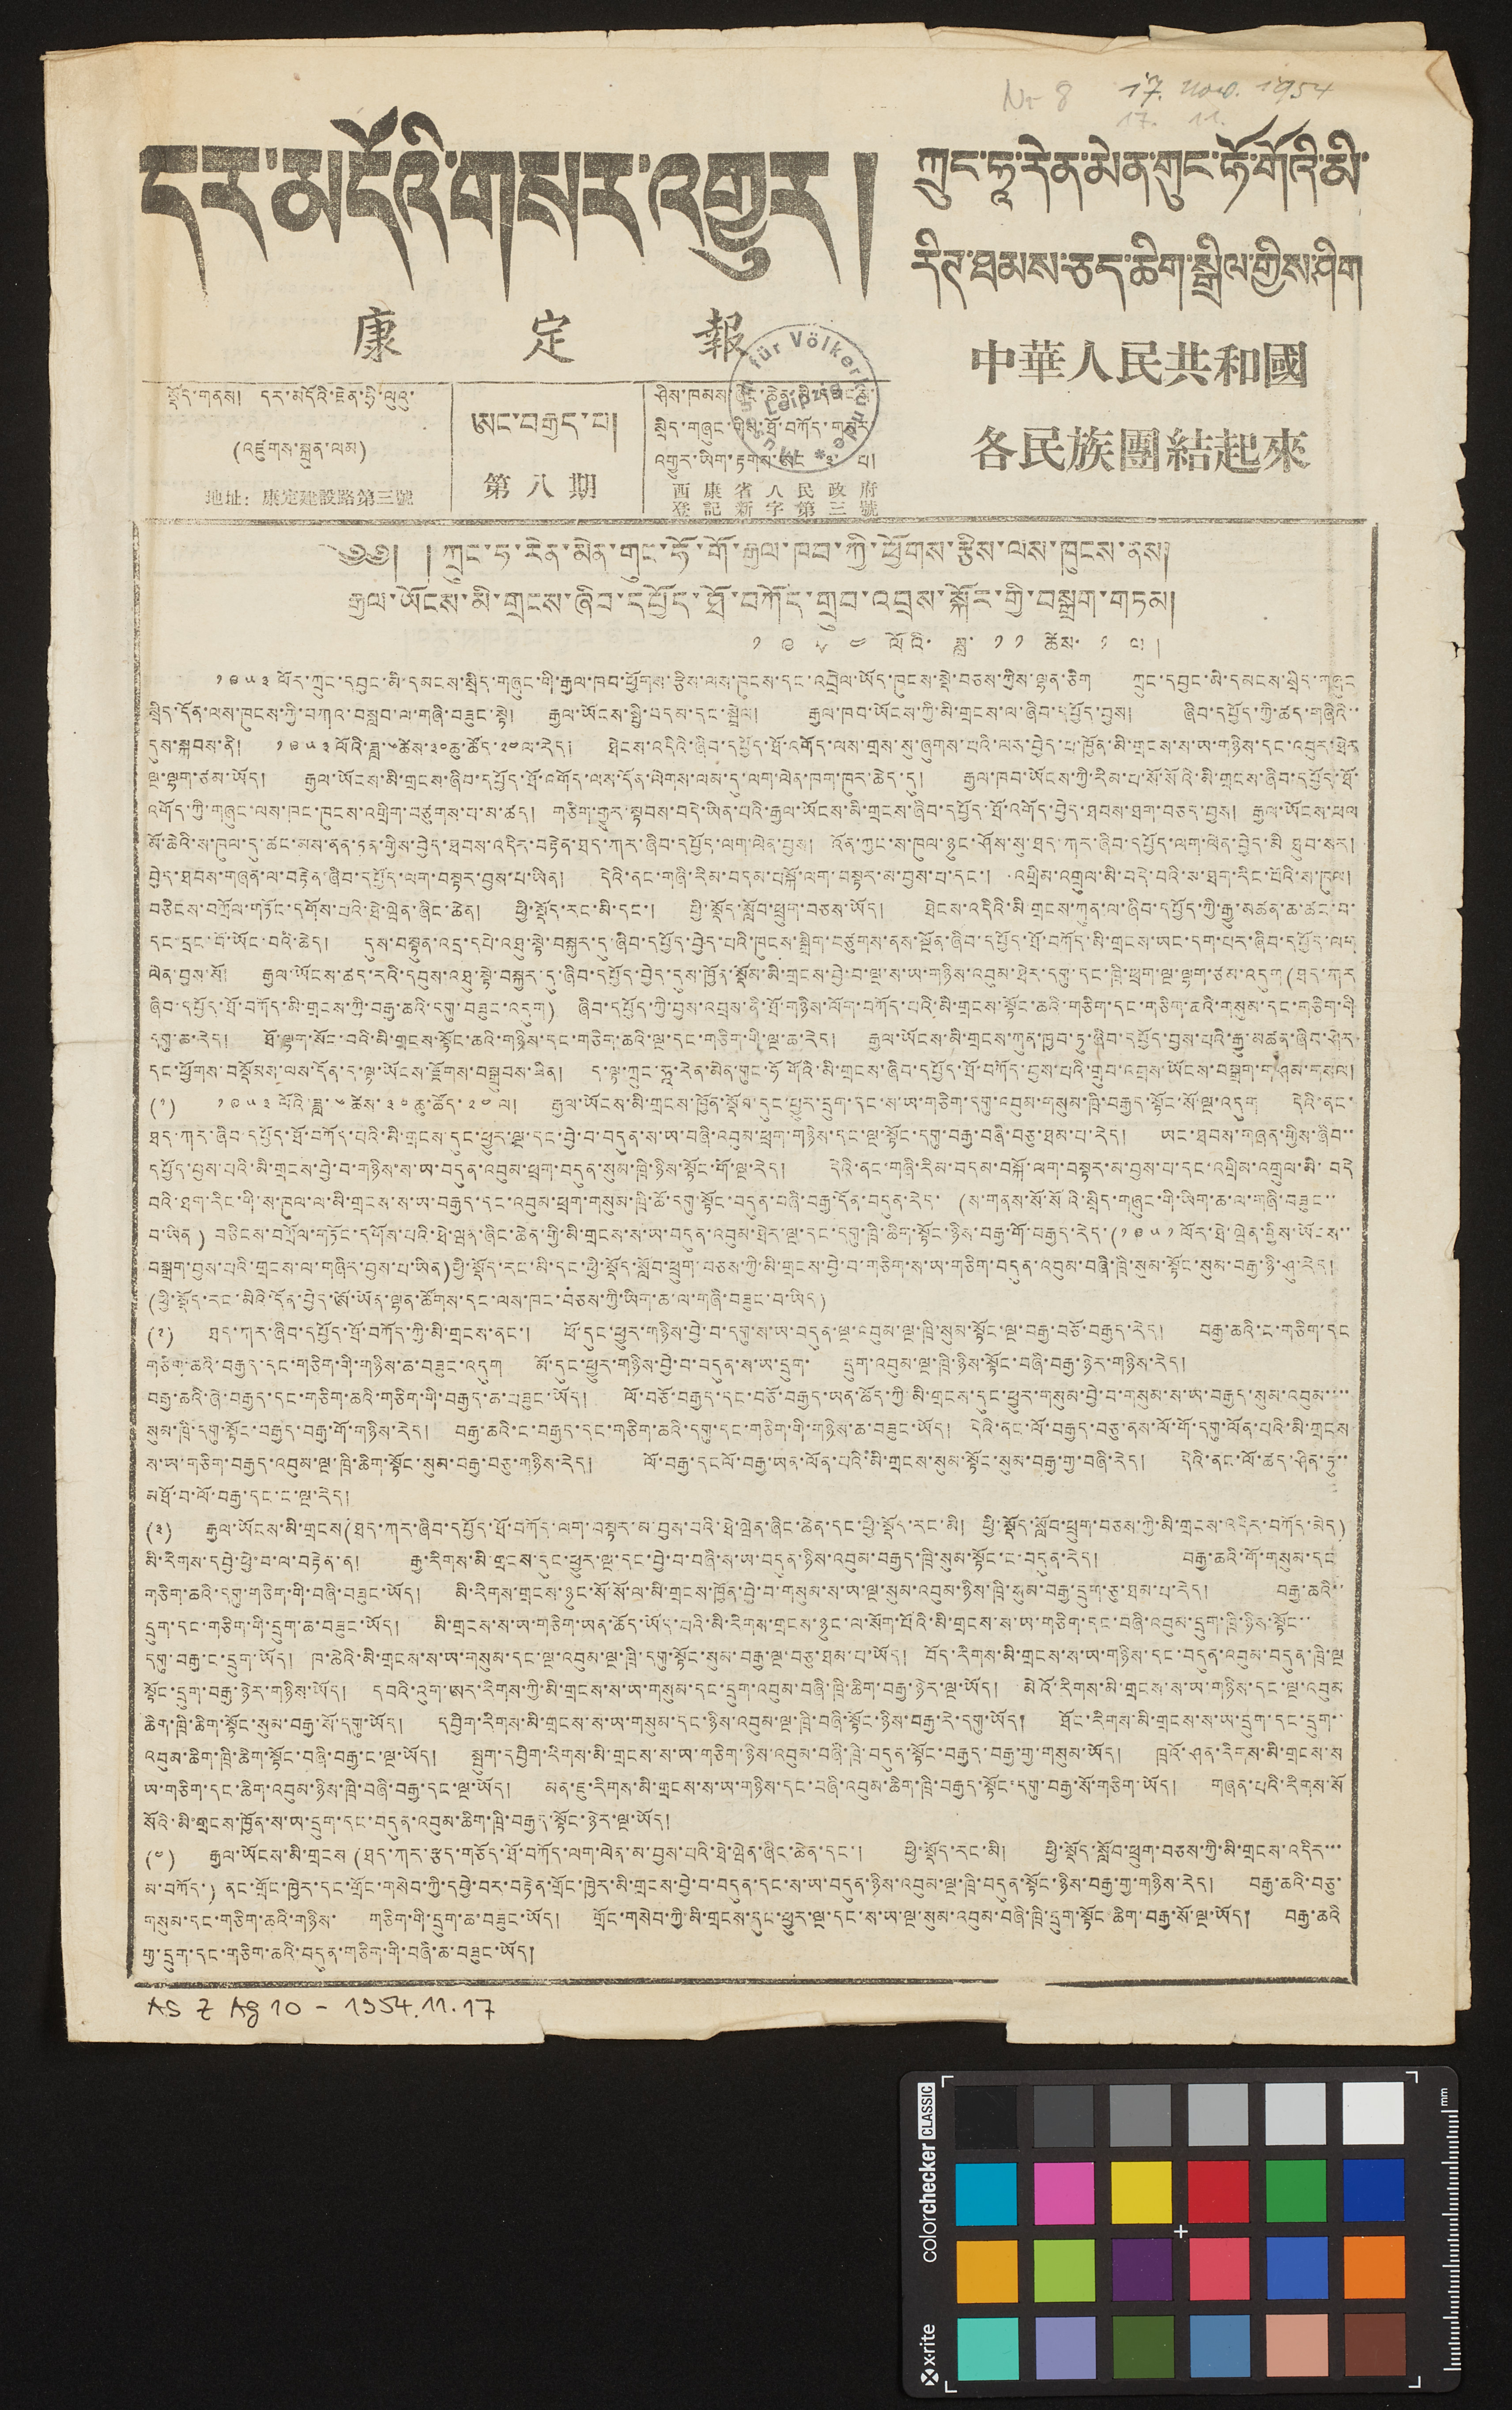དར་མདོའི་གསར་འགྱུར།
康 定 報
ཀྲུང་ཧཱ་རེན་མེན་གུང་ཧོ་གོའི་མི་
རིཊ་ཐམས་ཅད་ཆིག་སྒྲིལ་གྱིས་ཤིག
中華人民共和國
各民族團結起來
༄༅། ། ཀྲུང་ཧ་རེན་མེན་གུང་ཧོ་གོ་རྒྱལ་ཁབ་ཀྱི་ཕྱོགས་རྩིས་ལས་ཁུངས་ནས།
རྒྱལ་ཡོངས་མི་གྲངས་ཞིབ་དཔྱོད་ཐོ་བཀོད་གྲུབ་འབྲས་སྐོར་གྱི་བསྒྲག་གཏམ།
༡ ༩ ༥ ༤ ལོའི་ ཟླ་ ༡ ༡ ཚེས་ ༡ ལ །
༡༩༥༣ ལོར་ཀྲུང་དབྱང་མི་དམངས་སྲིད་གཞུང་གི་རྒྱལ་ཁབ་ཕྱོགས་རྩིས་ལས་ཁུངས་དང་འབྲེལ་ཡོད་ཁུངས་སྡེ་བཅས་ཀྱིས་ལྷན་ཅིག ཀྲུང་དབྱང་མི་དམངས་སྲིད་གཞུང
སྲིད་དོན་ལས་ཁུངས་ཀྱི་བཀའ་བསླབ་ལ་གཞི་བཟུང་སྟེ། རྒྱལ་ཡོངས་སྤྱི་བདམ་དང་སྦྲེལ། རྒྱལ་ཁབ་ཡོངས་ཀྱི་མི་གྲངས་ལ་ཞིབ་དཔྱོད་བྱས། ཞིབ་དཔྱོད་ཀྱི་ཚད་གཞིའི་་
དུས་སྐབས་ནི། ༡༩༥༣ལོའི་ཟླ་༦ཚེས་༣༠ཆུ་ཚོད་༢༤ལ་རེད། ཐེངས་འདིའི་ཞིབ་དཔྱོད་ཐོ་འགོད་ལས་གྲས་སུ་ཞུགས་པའི་ལས་བྱེད་པ་ཁྱོན་མི་གྲངས་ས་ཡ་གཉིས་དང་འབུར་ཐེར
ལྔ་ལྷག་ཙམ་ཡོད། རྒྱལ་ཡོངས་མི་གྲངས་ཞིབ་དཔྱོད་ཐོ་འགོད་ལས་དོན་ལེགས་ལམ་དུ་ལག་ལེན་ཁག་ཁུར་ཆེད་དུ། རྒྱལ་ཁབ་ཡོངས་གྱི་རིམ་པ་སོ་སོའི་མི་གྲངས་ཞིབ་དཔྱོད་ཐོ་
འགོད་ཀྱི་གཞུང་ལས་ཁང་ཁུངས་འགྲིག་བཙུགས་པ་མ་ཚད། གཅིག་གྱུར་སྟབས་བདེ་ཡིན་པའི་རྒྱལ་ཡོངས་མི་གྲངས་ཞིབ་དཔྱོད་ཐོ་འགོད་བྱེད་ཐབས་ཐག་བཅད་བྱས། རྒྱལ་ཡོངས་ཕལ
མོ་ཆེའི་ས་ཁུལ་དུ་ཚང་མས་ནན་ཏན་གྱིས་བྱེད་ཐབས་འདིར་བརྟེན་ཐད་ཀར་ཞིབ་དཔྱོད་ལག་ལེན་བྱས། འོན་ཀྱང་ས་ཁུལ་ཉུང་ཤོས་སུ་ཐད་ཀར་ཞིབ་དཔྱོད་ལག་ལེན་བྱེད་མི ཐུབ་སར།
བྱེད་ཐབས་གཞན་ལ་བརྟེན་ཞིབ་དཔྱོད་ལག་བསྟར་བྱས་པ་ཡིན། དེའི་ནང་གཞི་རིམ་བདམ་བསྐོ་ལག་བསྟར་མ་བྱས་པ་དང་། འགྲིམ་འགྲུལ་མི་བདེ་བའི་ས་ཐག་རིང་པོའི་ས་ཁུལ།
བཅིངས་བགྲོལ་གཏོང་དགོས་པའི་ཐེ་ཝེན་ཞིང་ཆེན། ཕྱི་སྡོད་རང་མི་དང་། ཕྱི་སྡོད་སློབ་ཕྲུག་བཅས་ཡོད། ཐེངས་འདིའི་མི གྲངས་ཀུན་ལ་ཞིབ་དཔྱོད་ཀྱི་རྒྱུ་མཚན་ཆ་ཚང་བ་
དང་དྲང་བོ་ཡོང་བའི་ཆེད། དུས་བསྟུན་འདྲ་དཔེ་འཐུ་སྟེ་བསྐུར་དུ་ཞིབ་དཔྱོད་བྱེད་པའི་ཁུངས་སྒྲིག་བཙུགས་ནས་སྔོན་ཞིབ་དཔྱོད་ཐོ་བཀོད་མི་གྲངས་ཡང་དག་པར་ཞིབ་དཔྱོད་ལག
ལེན་བྱས་སོ། རྒྱལ་ཡོངས་ཚད་རའི་དབུས་འཐུ་སྟེ་བསྐྱར་དུ་ཞིབ་དཔྱོད་བྱེད་དུས་ཁྱོན་སྡོམ་མི་གྲངས་བྱེ་བ་ལྔ་ས་ཡ་གཉིས་འབུམ་ཐེར་དགུ་དང་ཁྲི་ཕྲག་ལྔ་ལྷག་ཙམ་འདུག(ཐད་ཀར
ཞིབ་དཔྱོད་ཐོ་བཀོད་མི་གྲངས་ཀྱི་བརྒྱ་ཆའི་དགུ་བཟུང་འདུག) ཞིབ་དཔྱོད་ཀྱི་བྱས་འབྲས་ནི་ཐོ་གཉིས་ལོག་བཀོད་པའི་མི་གྲངས་སྟོང་ཆའི་གཅིག་དང་གཅིག་ཆའི་གསུམ་དང་གཅིག་གི
དགུ་ཆ་རེད། ཐོ་ལྷག་སོང་བའི་མི་གྲངས་སྟོང་ཆའི་གཉིས་དང་གཅིག་ཆའི་ལྔ་དང་གཅིག་གི་ལྔ་ཆ་རེད། རྒྱལ་ཡོངས་མི་གྲངས་ཀུན་ཁྱབ་ཏུ་ཞིབ་དཔྱོད་བྱས་པའི་རྒྱུ་མཚན་ཞིབ་ཤེར
དང་ཕྱོགས་བསྡོམས་ལས་དོན་ད་ལྟ་ཡོངས་རྫོགས་བསྒྲུབས་ཟིན། ད་ལྟ་ཀྲུང་ཧཱ་རེན་མེན་གུང་ཧོ གོའི་མི་གྲངས་ཞིབ་དཔྱོད་ཐོ་བཀོད་བྱས་པའི་གྲུབ་འབྲས་ཡོངས་བསྒྲག་གཤམ་གསལ།
(༡) ༡༩༥༣ ལོའི་ཟླ་ ༦ ཚེས་ ༣༠ ཆུ་ཚོད་ ༢༤ ལ། རྒྱལ་ཡོངས་མི་གྲངས་ཁྱོན་སྡོབ་དུང་ཕྱུར་དྲུག་དང་ས་ཡ་གཅིག་དགུ་འབུམ་གསུམ་ཁྲི་བརྒྱད་སྟོང་སོ་ལྔ་འདུག དེའི་ནང་
ཐད་ཀར་ཞིབ་དཔྱོད་ཐོ་བཀོད་པའི་མི་གྲངས་དུང་ཕྱུར་ལྔ་དང་བྱེ་བ་བདུན་ས་ཡ་བཞི་འབུམ་ཕྲག་གཉིས་དང་ལྔ་སྟོང་དགུ་བརྒྱ་བཞི་བཅུ་ཐམ་པ་རེད། ཡང་ཐབས་གཞན་གྱིས་ཞིབ་་
དཔྱོད་བྱས་པའི་མི་གྲངས་བྱེ་བ་གཉིས་ས་ཡ་བདུན་འབུམ་ཕྲག་བདུན་སུམ་ཁྲི་ཉིས་སྟོང་གོ་ལྔ་རེད། དེའི་ནང་གཞི་རིམ་བདམ་བསྐོ་ལག་བསྟར་མ་བྱས་པ་དང་འགྲིམ་འགུལ་མི་བདེ
བའི་ཐག་རིང་གི་ས་ཁུལ་ལ་མི་གྲངས་ས་ཡ་བརྒྱད་དང་འབུམ་ཕྲག་གསུམ་ཁྲི་ཆོ་དགུ་སྟོང་བདུན་བཞི་བརྒྱ་དོན་བདུན་རེད་ (ས་གནས་སོ་སོའི་སྲིད་གཞུང་གི་ཡིག་ཆ་ལ་གཞི་བཟུང་་
བ་ཡིན ) བཅིངས་བཀྲོལ་གཏོང་དགོས་པའི་ཐེ་ཝན་ཞིང་ཆེན་གྱི་མི་གྲངས་ས་ཡ་བདུན་འབུམ་ཐེར་ལྔ་དང་དགུ་ཁྲི་ཆིག་སྟོང་ཉིས་བརྒྱ་གོ་བརྒྱད་རེད་(༡༩༥༡ལོར་ཐེ་ཝེན་གྱིས་ཡོངས་་
བསྒྲག་བྱས་པའི་གྲངས་ལ་གཞིར་བྱས་པ་ཡིན)ཕྱི་སྡོད་རང་མི་དང་ཕྱི་སྡོད་སློབ་ཕྲུག་བཅས་ཀྱི་མི་གྲངས་བྱེ་བ་གཅིག་ས་ཡ་གཅིག་བདུན་འབུམ་བཞི་ཁྲི་སུམ་སྟོང་སུམ་བརྒྱ་ཉི་ཤུ་རེད།
(ཕྱི་སྡོད་རང་མིའི་དོན་བྱེད་ཨོ་ཡོན་ལྷན་ཚོགས་དང་ལས་ཁང་བཅས་ཀྱི་ཡིག་ཆ་ལ་གཞི་བཟུང་བ་ཡིད)
(༢) ཐད་ཀར་ཞིབ་དཔྱོད་ཐོ་བཀོད་ཀྱི་མི་གྲངས་ནང་། ཕོ་དུང་ཕྱུར་གཉིས་བྱེ་བ་དགུ་ས་ཡ་བདུན་ལྔ་འབུམ་ལྔ་ཁྲི་སུམ་སྟོང་ལྔ་བརྒྱ་བཅོ་བརྒྱད་རེད། བརྒྱ་ཆའི་ང་གཅིག་དང
གཅིག་ཆའི་བརྒྱད་དང་གཅིག་གི་གཉིས་ཆ་བཟུང་འདུག མོ་དུང་ཕྱུར་གཉིས་བྱེ་བ་བདུན་ས་ཡ་དྲུག་ དྲུག་འབུམ་ལྔ་ཁྲི་ཉིས་སྟོང་བཞི་བརྒྱ་ཉེར་གཉིས་རེད།
བརྒྱ་ཆའི་ཞེ་བརྒྱད་དང་གཅིག་ཆའི་གཅིག་གི་བརྒྱད་ཆ་བཟུང་ཡོད། ལོ་བཅོ་བརྒྱད་དང་བཅོ་བརྒྱད་ཡན་ཆོད་ཀྱི་མི་གྲངས་དུང་ཕྱུར་གསུམ་བྱེ་བ་གསུམ་ས་ཡ་བརྒྱད་སུམ་འབུམ་་་་
སུམ་ཁྲི་དགུ་སྟོང་བརྒྱད་བརྒྱ་གོ་གཉིས་རེད། བརྒྱ་ཆའི་ང་བརྒྱད་དང་གཅིག་ཆའི་དགུ་དང་གཅིག་གི་གཉིས་ཆ་བཟུང་ཡོད། དེའི་ནང་ལོ་བརྒྱད་བཅུ་ནས་ལོ་གོ་དགུ་ལོན་པའི་མི་གྲངས
ས་ཡ་གཅིག་བརྒྱད་འབུམ་ལྔ་ཁྲི་ཆིག་སྟོང་སུམ་བརྒྱ་བཅུ་གཉིས་རེད། ལོ་བརྒྱ་དང ལོ་བརྒྱ་ཡན་ལོན་པའི་མི་གྲངས་སུམ་སྟོང་སུམ་བརྒྱ་གྱ་བཞི་རེད། དེའི་ནང་ལོ་ཚད་ཤིན་ཏུ་་
མཐོ་བ་ལོ་བརྒྱ་དང་ང་ལྔ་རེད།
(༣) རྒྱལ་ཡོངས་མི་གྲངས(ཐད་ཀར་ཞིབ་དཔྱོད་ཐོ་བཀོད་ལག་བསྟར་མ་བྱས་པའི་ཐེ་ཝེན་ཞིང་ཆེན་དང་ཕྱི་སྡོད་རང་མི། ཕྱི་སྡོད་སློབ་ཕྲུག་བཅས་ཀྱི་མི་གྲངས་འདིར་བཀོད་མེད )
མི་རིགས་དབྱེ་ཕྱེ་བ་ལ་བརྟེན་ན། རྒྱ་རིགས་མི་གྲངས་དུང་ཕྱུར་ལྔ་དང་བྱེ་བ་བཞི་ས་ཡ་བདུན་ཉིས་འབུམ་བརྒྱད་ཁྲི་སུམ་སྟོང་ང་བདུན་རེད། བརྒྱ་ཆའི་གོ་གསུམ་དང
གཅིག་ཆའི་དགུ་གཅིག་གི་བཞི་བཟུང་ཡོད། མི་རིགས་གྲངས་ཉུང་སོ་སོ་ལ་མི་གྲངས་ཁྱོན་བྱེ་བ་གསུམ་ས་ཡ་ལྔ་སུམ་འབུམ་ཉིས་ཁྲི་སུམ་བརྒྱ་དྲུག་ཅུ་ཐམ་པ་རེད། བརྒྱ་ཆའི་་
དྲུག་དང་གཅིག་གི་དྲུག་ཆ་བཟུང་ཡོད། མི་གྲངས་ས་ཡ་གཅིག་ཡན་ཆོད་ཡོད་པའི་མི་རིགས་གྲངས་ཉུང་ལ་སོག་པོའི་མི་གྲངས་ས་ཡ་གཅིག་དང་བཞི་འབུམ་དྲུག་ཁྲི་ཉིས་སྟོང་་
དགུ་བརྒྱ་ང་དྲུག་ཡོད། ཁ་ཆེའི་མི་གྲངས་ས་ཡ་གསུམ་དང་ལྔ་འབུམ་ལྔ་ཁྲི་དགུ་སྟོང་སུམ་བརྒྱ་ལྔ་བཅུ་ཐམ་པ་ཡོད། བོད་རིགས་མི་གྲངས་ས་ཡ་གཉིས་དང་བདུན་འབུམ་བདུན་ཁྲི་ལྔ
སྟོང་དྲུག་བརྒྱ་ཉེར་གཉིས་ཡོད། ད བའི་འུག་ཨར་རིགས་ཀྱི་མི་གྲངས་ས་ཡ་གསུམ་དང་དྲུག་འབུམ་བཞི་ཁྲི་ཆིག་བརྒྱ་ཉེར་ལྔ་ཡོད། མེའོ་རིགས་མི་གྲངས་ས་ཡ་གཉིས་དང་ལྔ་འབུམ་
ཆིག་ཁྲི་ཆིག་སྟོང་སུམ་བརྒྱ་སོ་དགུ་ཡོད། དབྱིག་རིགས་མི་གྲངས་ས་ཡ་གསུམ་དང་ཉིས་འབུམ་ལྔ་ཁྲི་བཞི་སྟོང་ཉིས་བརྒྱ་རེ་དགུ་ཡོད། ཐོང་རིགས་མི་གྲངས་ས་ཡ་དྲུག་དང་དྲུག་
འབུམ་ཆིག་ཁྲི་ཆིག་སྟོང་བཞི་བརྒྱ་ང་ལྔ་ཡོད། སྤུག་དབྱིག་རིགས་མི་གྲངས་ས་ཡ་གཅིག་ཉིས་འབུམ་བཞི་ཁྲི་བདུན་སྟོང་བརྒྱད་བརྒྱ་གྱ་གསུམ་ཡོད། ཁྲའོ་ཤན་རིགས་མི་གྲངས་ས
ཡ་གཅིག་དང་ཆིག་འབུམ་ཉིས་ཁྲི་བཞི་བརྒྱ་དང་ལྔ་ཡོད། མན་ཇུ་རིགས་མི་གྲངས་ས་ཡ་གཉིས་དང་བཞི་འབུམ་ཆིག་ཁྲི་བརྒྱད་སྟོང་དགུ་བརྒྱ་སོ་གཅིག་ཡོད། གཞན་པའི་རིགས་སོ
སོའི་མི་གྲངས་ཁྱོན་ས་ཡ་དྲུག་དང་བདུན་འབུམ་ཆིག་ཁྲི་བརྒྱད་སྟོང་ཉེར་ལྔ་ཡོད།
(༤) རྒྱལ་ཡོངས་མི་གྲངས (ཐད་ཀར་རྩད་གཅོད་ཐོ་བཀོད་ལག་ལེན་མ་བྱས་པའི་ཐེ་ཝེན་ཞིང་ཆེན་དང་། ཕྱི་སྡོད་རང་མི། ཕྱི་སྡོད་སློབ་ཕྲུག་བཅས་ཀྱི་མི་གྲངས་འདིར་་་
མ་བཀོད་) ནང་གྲོང་ཁྱེར་དང་གྲོང་གསེབ་ཀྱི་དབྱེ་བར་བརྟེན་གྲོང་ཁྱེར་མི་གྲངས་བྱེ་བ་བདུན་དང་ས་ཡ་བདུན་ཉིས་འབུམ་ལྔ་ཁྲི་བདུན་སྟོང་ཉིས་བརྒྱ་གྱ་གཉིས་རེད། བརྒྱ་ཆའི་བཅུ་
གསུམ་དང་གཅིག་ཆའི་གཉིས་ གཅིག་གི་དྲུག་ཆ་བཟུང་ཡོད། གྲོང་གསེབ་ཀྱི་མི་གྲངས་དུང་ཕྱུར་ལྔ་དང་ས་ཡ་ལྔ་སུམ་འབུམ་བཞི་ཁྲི་དྲུག་སྟོང ཆིག་བརྒྱ་སོ་ལྔ་ཡོད། བརྒྱ་ཆའི
གྱ་དྲུག་དང་གཅིག་ཆའི་བདུན་གཅིག་གི་བཞི་ཆ་བཟུང་ཡོད།
